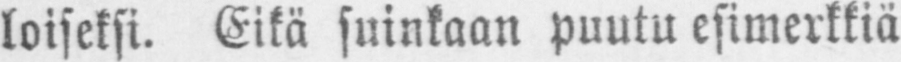loiseksi. Eikä suinkaan puutu esimerkkiä
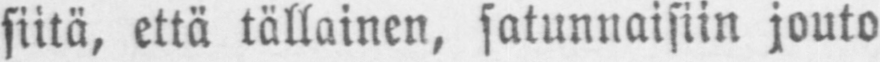siitä, että tällainen, satunnaisiin jouto-
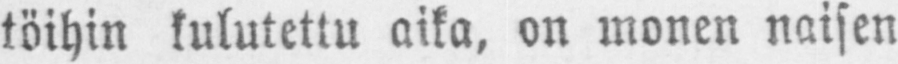töihin kulutettu aika, on monen naisen
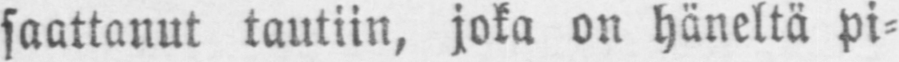saattanut tautiin, joka on häneltä pi-
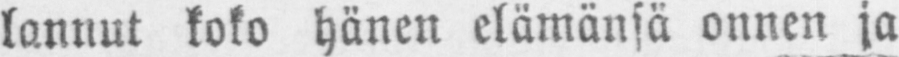lannut koko hänen elämänsä onnen ja
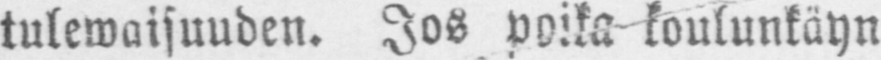tulewaisuuden. Jos poika koulunkäyn-
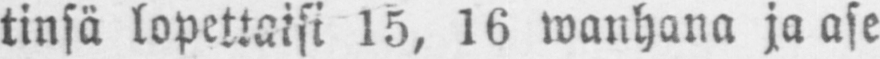tinsä lopettaisi 15, 16 wanhana ja ase-
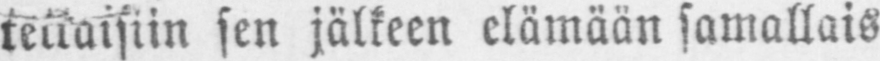tettaisiin sen jälkeen elämään samallais-
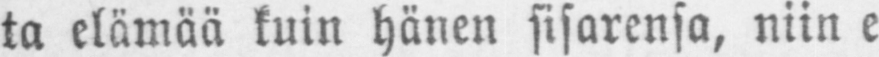ta elämää kuin hänen sisarensa, niin ei
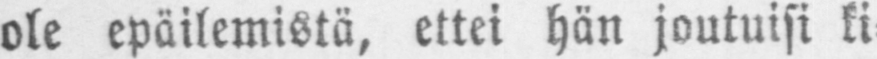ole epäilemistä, ettei hän joutuisi ki-
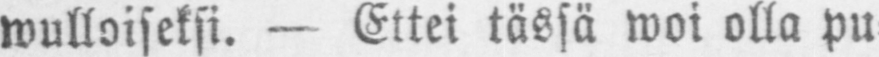wulloiseksi. — Ettei tässä woi olla pu-
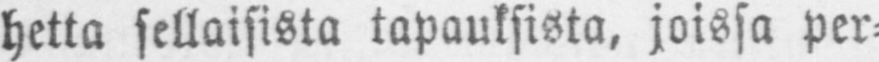hetta sellaisista tapauksista, joissa per-
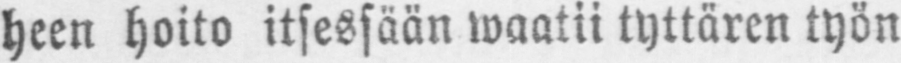heen hoito itsessään waatii tyttären työn
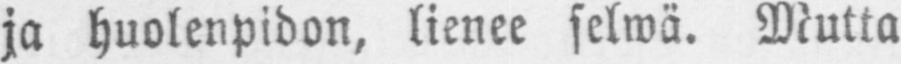ja huolenpidon, lienee selwä. Mutta
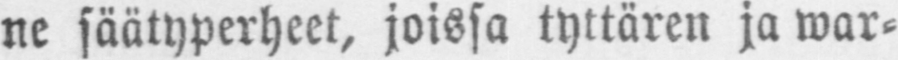ne säätyperheet, joissa tyttären ja war-
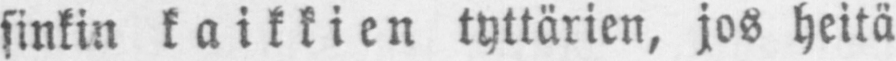sinkin kaikkien tyttärien, jos heitä
